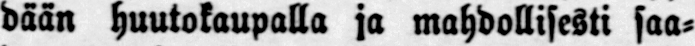dään huutokaupalla ja mahdollisesti saa-
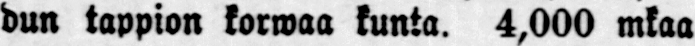dun tappion korwaa kunta. 4,000 mkaa
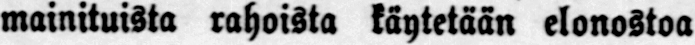mainituista rahoista käytetään elonostoa
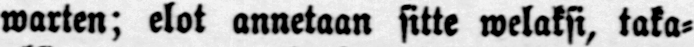warten; elot annetaan sitte welaksi, taka-
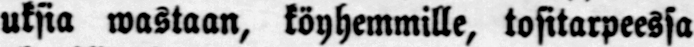uksia wastaan, köyhemmille, tositarpeessa
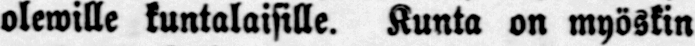olewille kuntalaisille. Kunta on myöskin
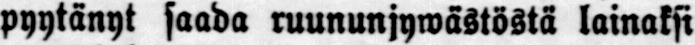pyytänyt saada ruununjywästöstä lainaksi
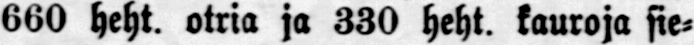660 heht. otria ja 330 heht. kauroja sie-
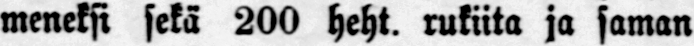meneksi sekä 200 heht. rukiita ja saman
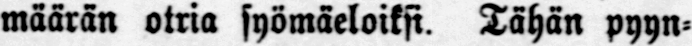määrän otria syömäeloiksi. Tähän pyyn-
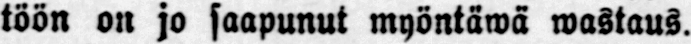töön on jo saapunut myöntäwä wastaus.
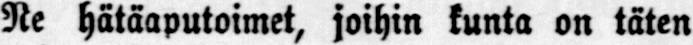Ne hätäaputoimet, joihin kunta on täten
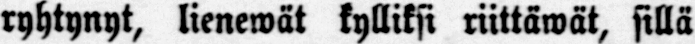ryhtynyt, lienewät kylliksi riittäwät, sillä
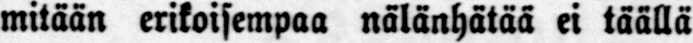mitään erikoisempaa nälänhätää ei täällä
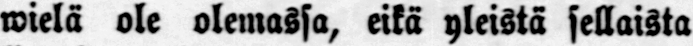wielä ole olemassa, eikä yleistä sellaista
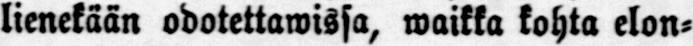lienekään odotettawissa, waikka kohta elon-
